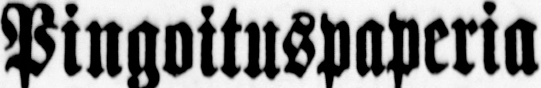Pingoituspaperia
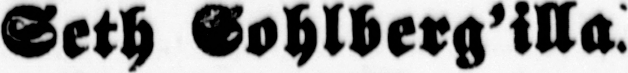Seth Sohlberg'illa.
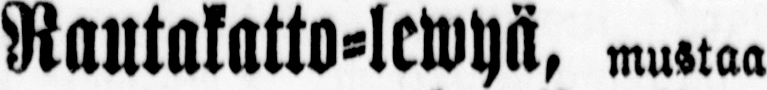Rautakatto-lewyä, mustaa
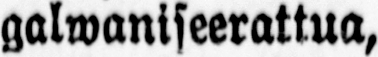galwaniseerattua,
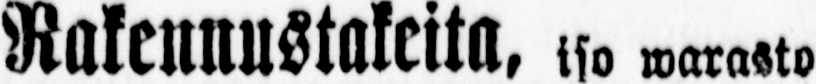Rakennustakeita, iso warasto
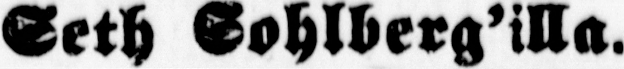Seth Sohlberg'illa.
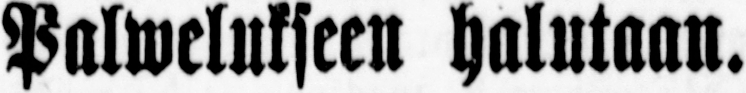Palwelukseen halutaan.
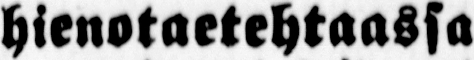Fiskarin hienotaetehtaassa
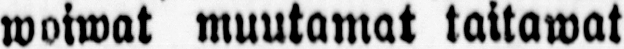woiwat muutamat taitawat
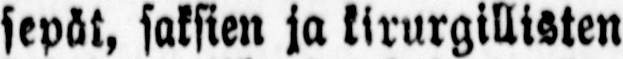sepät, saksien ja kirurgillisten
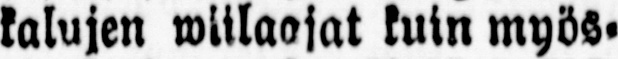kalujen wiilaajat kuin myös-
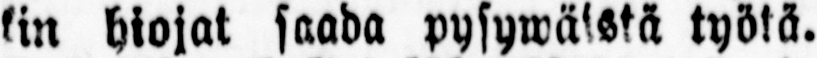kin hiojat saada pysywäistä työtä.
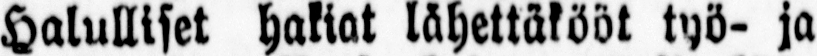Halulliset hakiat lähettäkööt työ- ja
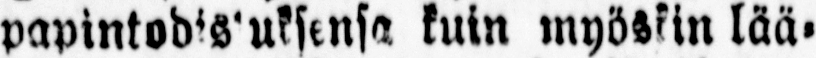papintodis uksensa kuin myöskin lää-
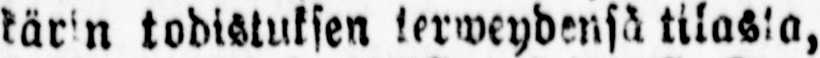kärin todistuksen terweydensä tilasta,
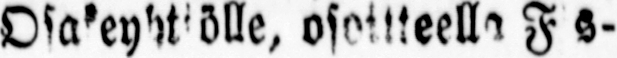Fiskarin Osakeyhtiölle, osoitteella F s-
